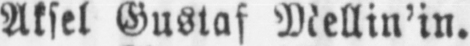Aksel Gustaf Mellin'in.
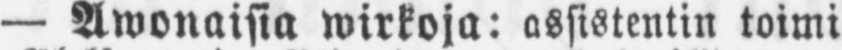— Awonaisia wirkoja: assistentin toimi
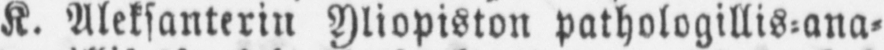K. Aleksanterin Yliopiston pathologillis-ana-
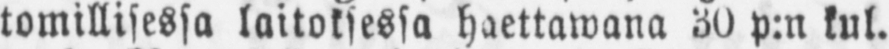tomillisessa laitoksessa haettawana 30 p:n kul.
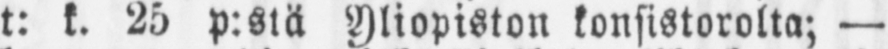t: k. 25 p:stä Yliopiston konsistorolta; —
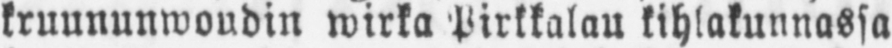kruununwoudin wirka Pirkkalau kihlakunnassa
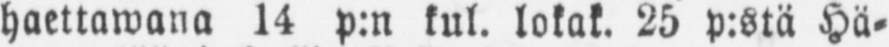haettawana 14 p:n kul. lokak. 25 p:stä Hä-
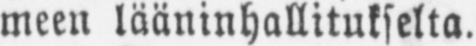meen lääninhallitukselta.
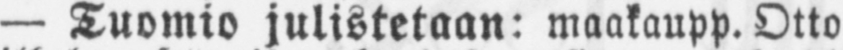— Tuomio julistetaan: maakaupp. Otto
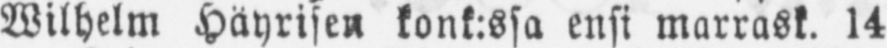Wilhelm Häyrisen konk:ssa ensi marrask. 14
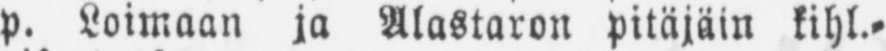p. Loimaan ja Alastaron pitäjäin kihl.-
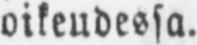oikeudessa.
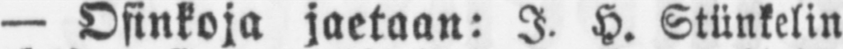— Osinkoja jaetaan: I. H. Stü nkelin
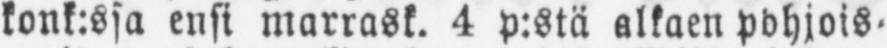konk:ssa ensi marrask. 4 p:stä alkaen pohjois-
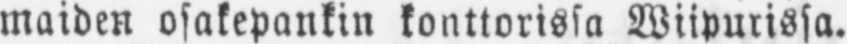maiden osakepankin konttorissa Wiipurissa.
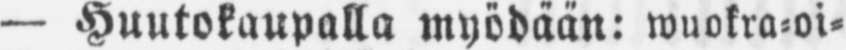— Huutokaupalla myöhään: wuokra-oi-
